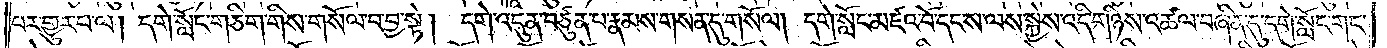པར་གྱུར་པ་ལ། དགེ་སློང་གཅིག་གིས་གསོལ་བ་བྱ་སྟེ། དགེ་འདུན་བཙུན་པ་རྣམས་གསན་དུ་གསོལ། དགེ་སློང་མཛའ་བོ་དང་ས་ལས་སྐྱེས་འདི་གཉིས་འཚལ་བཞིན་དུ་དགེ་སློང་གང་
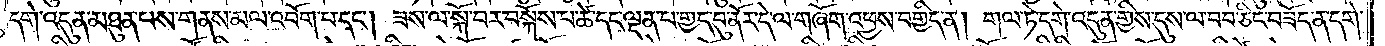དགེ་འདུན་མཐུན་པས་གནས་མལ་འབོག་པ་དང༌། ཟས་ལ་སྐོ་བར་བསྐོས་པ་ཚེ་དང་ལྡན་པ་གྱད་བུ་ནོར་དེ་ལ་གཞོག་འཕྱས་བགྱིད་ན། གལ་ཏེ་དགེ་འདུན་གྱིས་དུས་ལ་བབ་ཅིང་བཟོད་ན་དགེ་
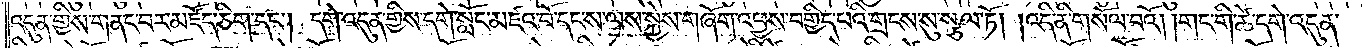འདུན་གྱིས་གནང་བར་མཛོད་ཅིག་དང༌། དགེ་འདུན་གྱིས་དགེ་སློང་མཛའ་བོ་དང་ས་ལས་སྐྱེས་གཞོག་འཕྱས་བགྱིད་པའི་གྲངས་སུ་སྩལ་ཏོ། །འདི་ནི་གསོལ་བའོ། །གང་གི་ཚེ་དགེ་འདུན་
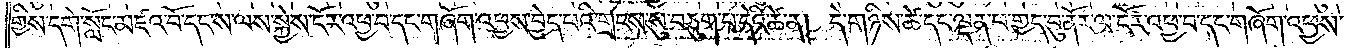གྱིས་དགེ་སློང་མཛའ་བོ་དང་ས་ལས་སྐྱེས་ངོར་འཕྱ་བ་དང་གཞོག་འཕྱས་བྱེད་པའི་གྲངས་སུ་བཅུག་པ་དེའི་ཚེ་ན། དེ་གཉིས་ཚེ་དང་ལྡན་པ་གྱད་བུ་ནོར་ལ་ངོར་འཕྱ་བ་དང་གཞོག་འཕྱས་
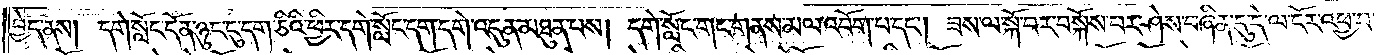བྱེད་ནས། དགེ་སློང་དོན་ཉུང་ངུ་དག་ཅིའི་ཕྱིར་དགེ་སློང་དག་དགེ་འདུན་མཐུན་པས། དགེ་སློང་གང་གནས་མལ་འབོག་པ་དང༌། ཟས་ལ་སྐོ་བར་བསྐོས་པར་ཤེས་བཞིན་དུ་དེ་ལ་ངོར་འཕྱ་བ་
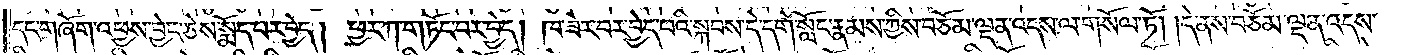དང་གཞོག་འཕྱས་བྱེད་ཅེས་སྨོད་པར་བྱེད། ཕྱར་ཀ་གཏོང་བར་བྱེད། ཁ་ཟེར་བར་བྱེད་པའི་སྐབས་དེ་དགེ་སློང་རྣམས་ཀྱིས་བཅོམ་ལྡན་འདས་ལ་གསོལ་ཏོ། །དེ་ནས་བཅོམ་ལྡན་འདས་
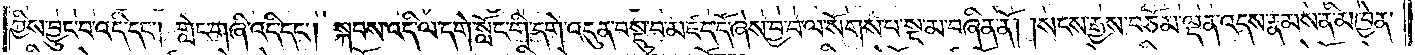ཀྱིས་བྱུང་བ་འདི་དང༌། གླེང་གཞི་འདི་དང༌། སྐབས་འདི་ལ་དགེ་སློང་གི་དགེ་འདུན་བསྡུ་བ་མཛད་དོ་ཞེས་བྱ་བ་ལ་སོགས་པ་སྔ་མ་བཞིན་ནོ། །སངས་རྒྱས་བཅོམ་ལྡན་འདས་རྣམས་ནི་མཁྱེན་
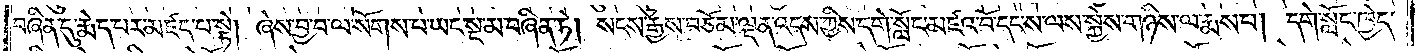བཞིན་དུ་རྨེད་པར་མཛད་པ་སྟེ། ཞེས་བྱ་བ་ལ་སོགས་པ་ཡང་སྔ་མ་བཞིན་ཏེ། སངས་རྒྱས་བཅོམ་ལྡན་འདས་ཀྱིས་དགེ་སློང་མཛའ་བོ་དང་ས་ལས་སྐྱེས་གཉིས་ལ་རྨས་པ། དགེ་སློང་ཁྱེད་
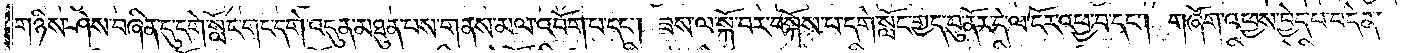གཉིས་ཤེས་བཞིན་དུ་དགེ་སློང་གང་དགེ་འདུན་མཐུན་པས་གནས་མལ་འབོག་པ་དང༌། ཟས་ལ་སྐོ་བར་བསྐོས་པ་དགེ་སློང་གྱད་བུ་ནོར་དེ་ལ་ངོར་འཕྱ་བ་དང༌། གཞོག་འཕྱས་བྱེད་པ་བདེན་
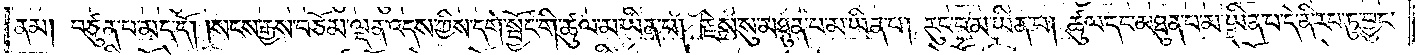ནམ། བཙུན་པ་མད་དོ། །སངས་རྒྱས་བཅོམ་ལྡན་འདས་ཀྱིས་དགེ་སྦྱོང་གི་ཚུལ་མ་ཡིན་པ། རྗེས་སུ་མཐུན་པ་མ་ཡིན་པ། རུང་བ་མ་ཡིན་པ། ཚུལ་དང་མཐུན་པ་མ་ཡིན་པ་དེ་ནི་རབ་ཏུ་བྱུང་
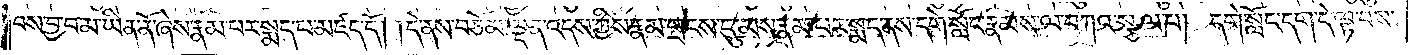བས་བྱ་བ་མ་ཡིན་ནོ་ཞེས་རྣམ་པར་སྨད་པ་མཛད་དོ། །དེ་ནས་བཅོམ་ལྡན་འདས་ཀྱིས་རྣམ་གྲངས་དུ་མས་རྣམ་པར་སྨད་ནས་དགེ་སློང་རྣམས་ལ་བཀའ་སྩལ་པ། དགེ་སློང་དག་དེ་ལྟ་བས་
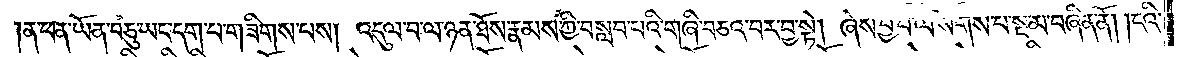ན་ཕན་ཡོན་བཅུ་ཡང་དག་པ་གཟིགས་པས། འདུལ་བ་ལ་ཉན་ཐོས་རྣམས་ཀྱི་བསླབ་པའི་གཞི་བཅའ་བར་བྱ་སྟེ། ཞེས་བྱ་བ་ལ་སོགས་པ་སྔ་མ་བཞིན་ནོ། །ངའི་
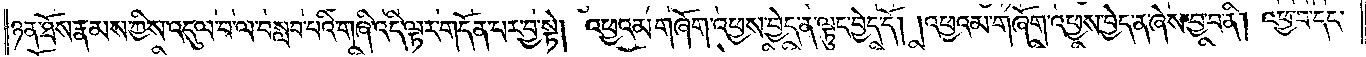ཉན་ཐོས་རྣམས་ཀྱིས་འདུལ་བ་ལ་བསླབ་པའི་གཞི་འདི་ལྟར་གདོན་པར་བྱ་སྟེ། འཕྱའམ་གཞོག་འཕྱས་བྱེད་ན་ལྟུང་བྱེད་དོ། །འཕྱའམ་གཞོག་འཕྱས་བྱེད་ན་ཞེས་བྱ་བ་ནི། འཕྱ་བ་དང་
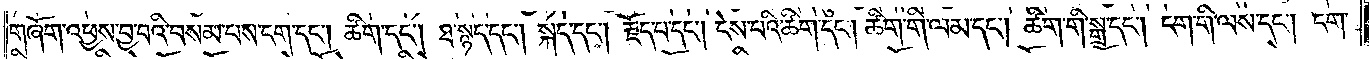གཞོག་འཕྱས་བྱ་བའི་བསམ་པས་ངག་དང༌། ཚིག་དང༌། ཐ་སྙད་དང༌། སྐད་དང༌། རྗོད་པ་དང༌། ངེས་པའི་ཚིག་དང༌། ཚིག་གི་ལམ་དང༌། ཚིག་གི་སྒྲ་དང༌། ངག་གི་ལས་དང༌། ངག་
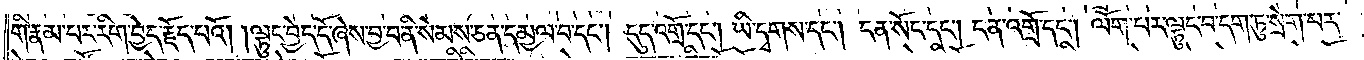གི་རྣམ་པར་རིག་བྱེད་རྗོད་པའོ། །ལྟུང་བྱེད་དོ་ཞེས་བྱ་བ་ནི་སེམས་ཅན་དམྱལ་བ་དང༌། དུད་འགྲོ་དང༌། ཡི་དྭགས་དང༌། ངན་སོང་དང༌། ངན་འགྲོ་དང༌། ལོག་པར་ལྟུང་བ་དག་ཏུ་སྲེག་པར་
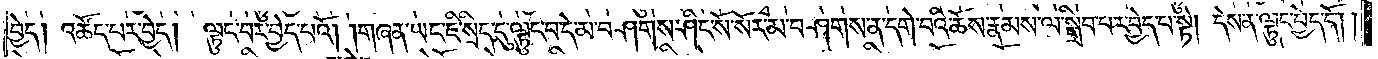བྱེད། འཚོད་པར་བྱེད། ལྟུང་བར་བྱེད་པའོ། །གཞན་ཡང་ཇི་སྲིད་དུ་ལྟུང་བ་དེ་མ་བཤགས་ཤིང་སོ་སོར་མ་བཤགས་ན་དགེ་བའི་ཆོས་རྣམས་ལ་སྒྲིབ་པར་བྱེད་པ་སྟེ། དེས་ན་ལྟུང་བྱེད་དོ། །
